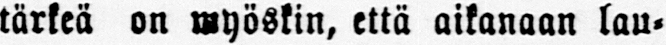tärkeä on myöskin, että aikanaan lau-
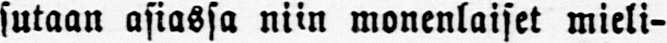sutaan asiassa niin monenlaiset mieli-
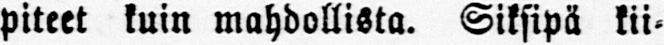piteet kuin mahdollista. Siksipä kii-
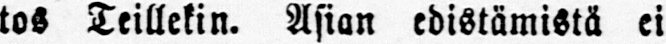tos Teillekin. Asian edistämistä ei
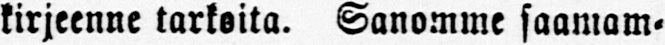kirjeenne tarkoita. Sanomme saamam-
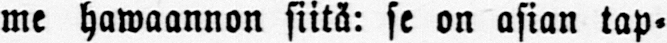me hawaannon siitä: se on asian tap-
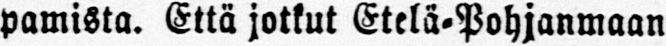pamista. Että jotkut Etelä-Pohjanmaan
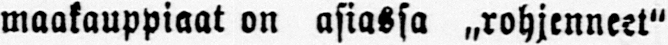maakauppiaat on asiassa ,,rohjenneet"
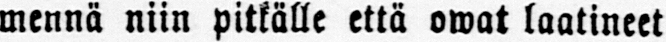mennä niin pitkälle että omat laatineet
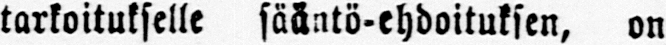tarkoitukselle sääntö-ehdoituksen, on
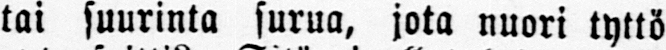tai suurinta surua, jota nuori tyttö
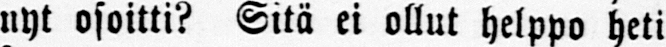nyt osoitti? Sitä ei ollut helppo heti
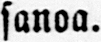sanoa.
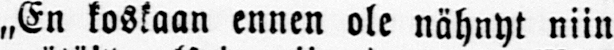„En koskaan ennen ole nähnyt niin
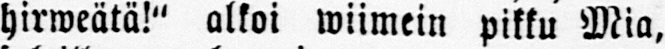hirweätä!" alkoi wiimein pikku Mia.
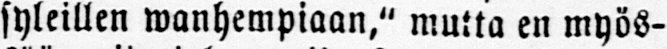syleillen wanhempiaan," mutta en myös-
